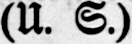(U. S.)
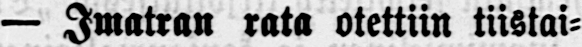— Imatran rata otettiin tiistai-
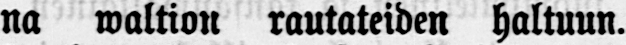na waltton rautateiden haltuun.
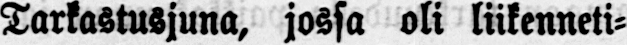Tarkastusjuna, jossa oli liikenneti-
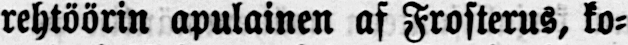rehtöörin apulainen af Frosterus, ko-
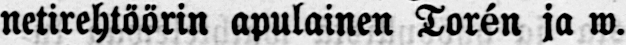netirehtöörin apulainen Torén ja w.
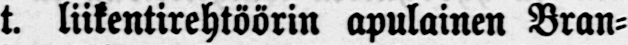t. liikentirehtöörin apulainen Bran-
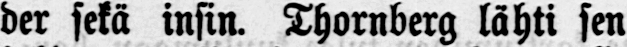der sekä insin. Thornberg lähti sen
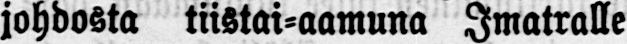johdosta tiistai-aamuna Imatralle
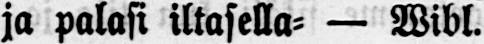ja palasi iltasella- — Wibl.
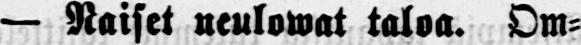— Naiset neulowat taloa. Om-
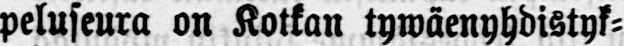peluseura on Kotkan tywäenyhdistyk-
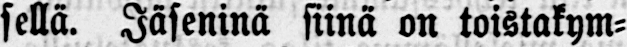sellä. Jäseninä siinä on toistakym-
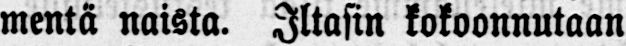mentä naista. Iltasin kokoonnutaan
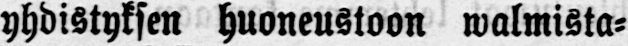yhdistyksen huoneustoon walmista-
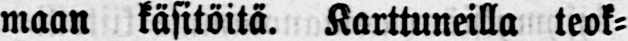maan käsitöitä. Karttuneilla teok-
